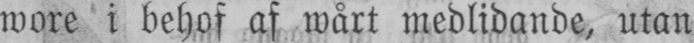wore i bebos af wårt medlidande, utan
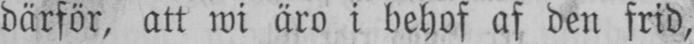därför, att wi äro i behof af den frid,
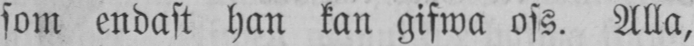som endast han kan gifwa ofs. Alla,
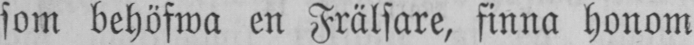som behöfwa en Frälsare, finna honom
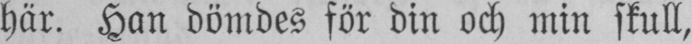här. Han dömdes för din och min skull,
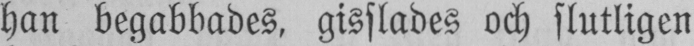han begabbades, gisslades och slutligen
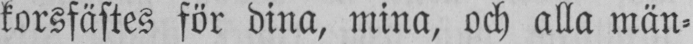korsfästes för dina, mina, och alla män-
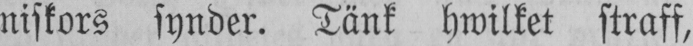niskors synder. Tänk hwilket straff,
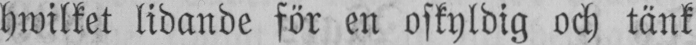hwilket lidande för en oskyldig och tänk
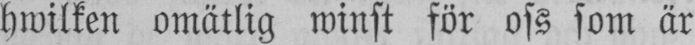hwilken omätlig winst för oss som är
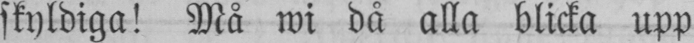skyldiga! Må wi då alla blicka upp
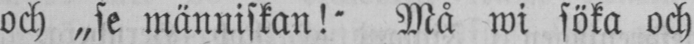och „se människan!" Må wi söka och
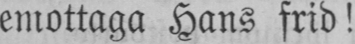emottaga Hans frid!
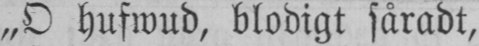„O hufwud, blodigt fåradt,
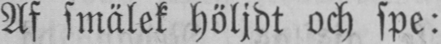Af smälek höljdt och spe:
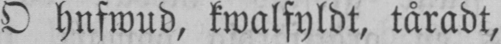O hnfwud, kwalfyldt, tåradt,
